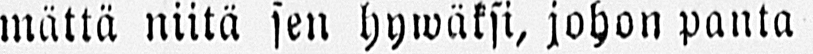mättä niitä sen hywäksi, johon panta
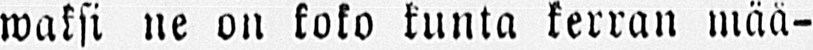waksi ne on koko kunta kerran mää-
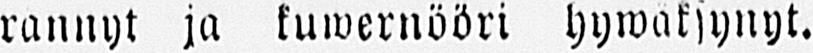rännyt ja kuwernööri hywäksynyt.
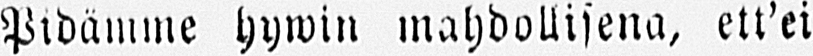Pidämme hywin mahdollisena, ett’ei
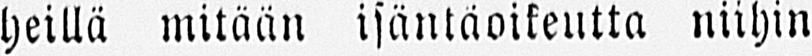heillä mitään isäntäoikeutta niihin
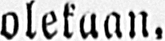olekaan.
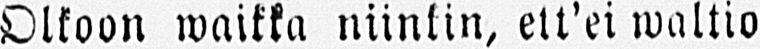Olkoon waikka niinkin, ett’ei waltio
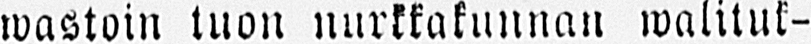wastoin tuon nurkkakunnan walituk-
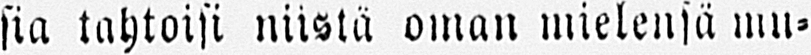sia tahtoisi niistä oman mielensä mu-
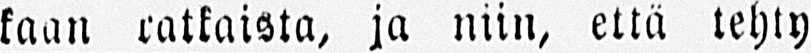kaan ratkaista, ja niin, että tehty
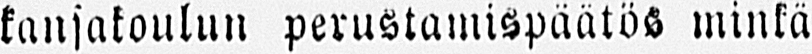kansakoulun perustamispäätös minkä
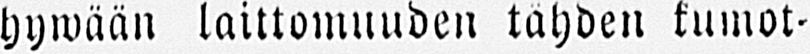hywään laittomuuden tähden kumot-
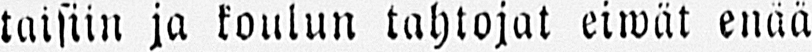taisiin ja koulun tahtojat eiwät enää
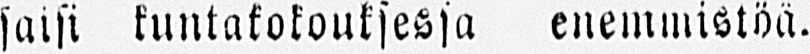saisi kuntakokouksessa enemmistöä.
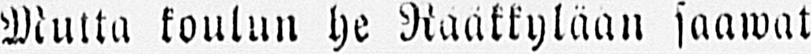Mutta koulun he Rääkkylään saawat
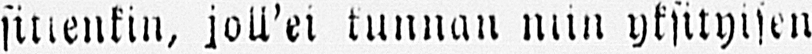sittenkin, joll’ei kunnan niin yksityisen
